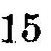15
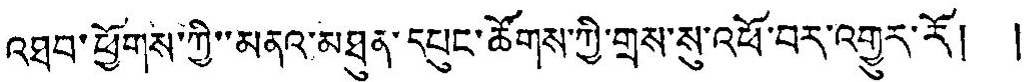འཐབ་ཕྱོགས་ཀྱི་མནའ་མཐུན་དཔུང་ཚོགས་ཀྱི་གྲས་སུ་འཕོ་བར་འགྱུར་རོ། །
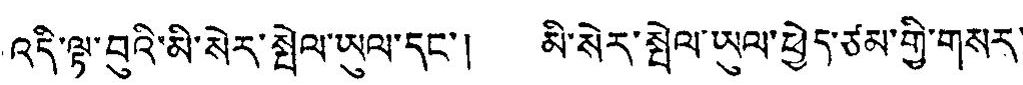འདི་ལྟ་བུའི་མི་སེར་སྤེལ་ཡུལ་དང་། མི་སེར་སྤེལ་ཡུལ་ཕྱེད་ཙམ་གྱི་གསར་
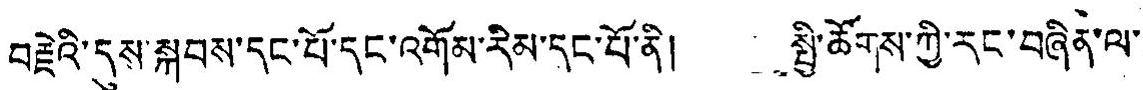བརྗེའི་དུས་སྐབས་དང་པོ་དང་འགོམ་རིམ་དང་པོ་ནི། སྤྱི་ཚོགས་ཀྱི་རང་བཞིན་ལ་
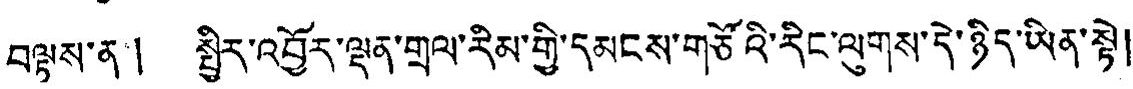བལྟས་ན། སྤྱིར་འབྱོར་ལྡན་གྲལ་རིམ་གྱི་དམངས་གཙོའི་རིང་ལུགས་དེ་ཉིས་ཡིན་སྟེ།
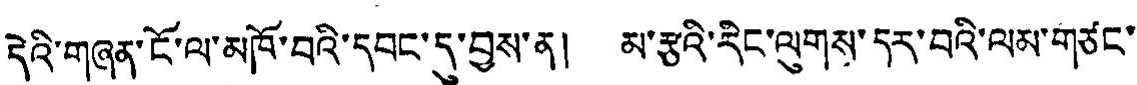དེའི་གཞན་ངོ་ལ་མཁོ་བའི་དབང་དུ་བྱས་ན། མ་རྩའི་རིང་ལུགས་དར་བའི་ལམ་གཙང་
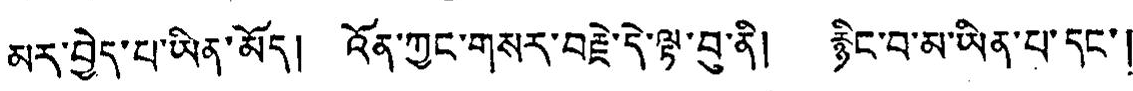མར་བྱེད་པ་ཡིན་མོད། འོན་ཀྱང་གསར་བརྗེ་དེ་ལྟ་བུ་ནི། རྙིང་བ་མ་ཡིན་པ་དང་།
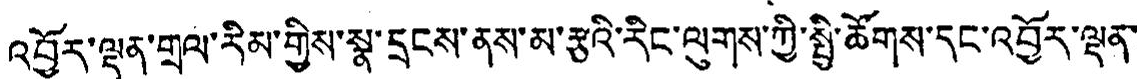འབྱོར་ལྡ་ངརལ་རིམ་གྱིས་སྣ་དྲངས་ནས་མ་རྩའི་རིང་ལུགས་ཀྱི་སྤྱི་ཚོགས་དང་འབྱོར་ལྡན་
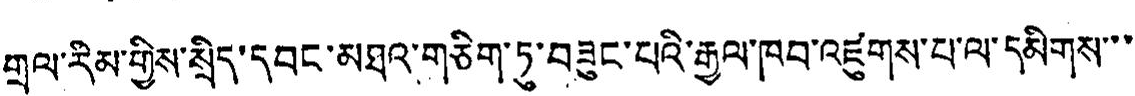གྲལ་རིམ་གྱིས་སྲིད་དབང་མཐའ་གཅིག་ཏུ་བཟུང་པའི་རྒྱལ་ཁབ་འཛུགས་པ་ལ་དམིགས་་་
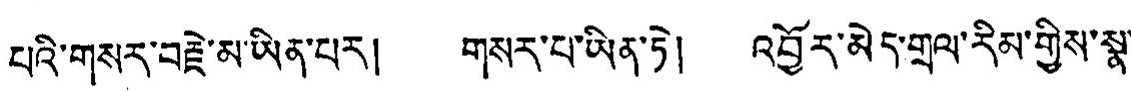པའི་གསར་བརྗེ་མ་ཡིན་པར། གསར་པ་ཡིན་ཏེ། འབྱོར་མེད་གྲལ་རིམ་གྱིས་སྣ་
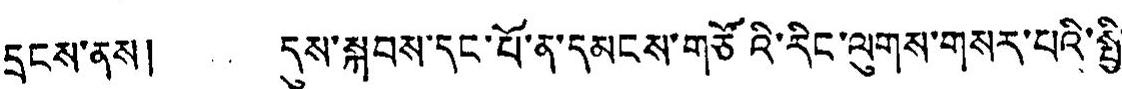དྲངས་ནས། དུས་སྐབས་དང་པོ་ན་དམངས་གཙོའི་རིང་ལུགས་གསྲ་པའི་སྤྱི་
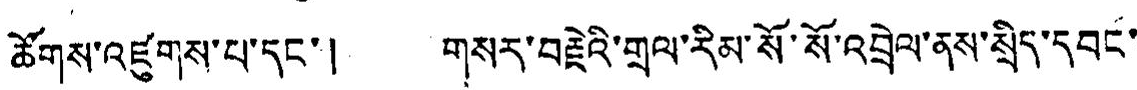ཚོགས་འཛུགས་པ་དང་། གསར་བརྗེའི་གྲལ་རིམ་སོ་སོ་འབྲེལ་ནས་སྲིད་དབང་
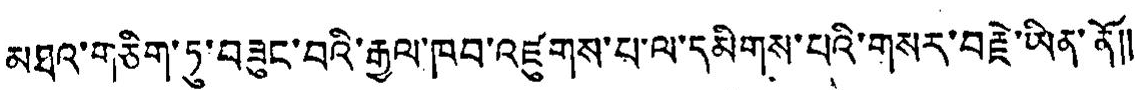མཐའ་གཅིག་ཏུ་བཟུང་བའི་རྒྱལ་ཁབ་འཛུགས་པ་ལ་དམིགས་པའི་གསར་བརྗེ་ཡིན་ནོ༎
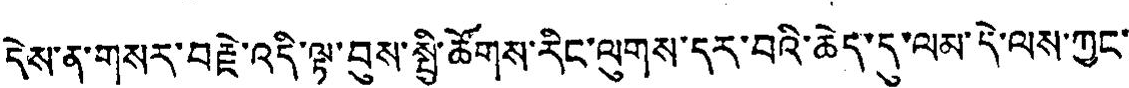དེས་ན་གསར་བརྗེ་འདི་ལྟ་བུས་སྤྱི་ཚོགས་རིང་ལུགས་དར་བའི་ཆེད་དུ་ལམ་དེ་ལས་ཀྱང་
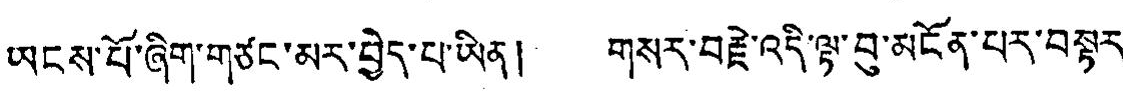ཡངས་པོ་ཞིག་གཙང་མར་བྱེད་པ་ཡིན། གསར་བརྗེ་འདི་ལྟ་བུ་མངོན་པར་བསྟར་
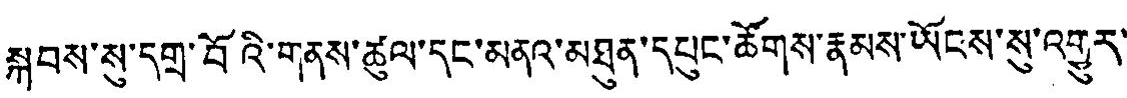སྐབས་སུ་དགྲ་བོའི་གནས་ཚུལ་དང་མནའ་མཐུན་དཔུང་ཚོགས་རྣམས་ཡོངས་སུ་འགྱུར་
